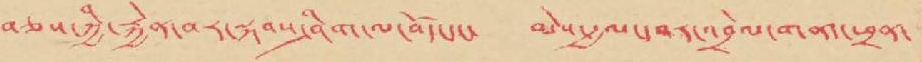བཅས་ཀྱི་རྐྱེན་བར་སྐབས་ཤིག་ལ་བོད་དང་ མེས་རྒྱལ་དབར་འབྲེལ་གནད་ཕྲན་
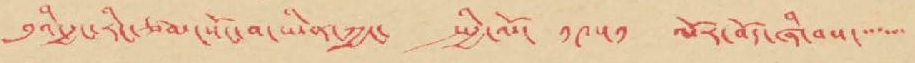བུའི་རྒྱང་རིང་ཙམ་སོང་བ་ཡིན་ཀྱང་ སྤྱི་ལོ་ ༡༩༥༡ ལོར་བོད་ཞི་བས་་་་་་་
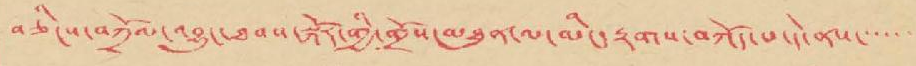བཅིངས་བཀྲོལ་འབྱུང་ཐབས་སྐོར་གྱི་གྲོས་མཐུན་ལ་མིང་རྟགས་བཀོད་པ་དེ་ནས་་་་་་
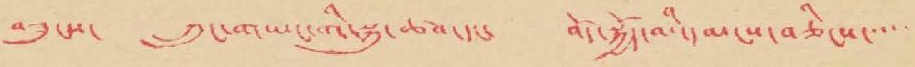བཟུངས་ ཀྲུང་གཡང་གི་སྐུ་ཚབ་དང་ བོད་སྐྱོད་མི་དམངས་བཅིངས་་་་་
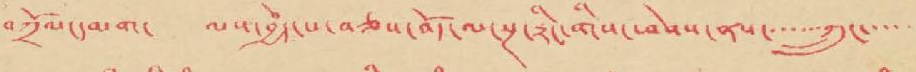བཀྲོལ་དམག་ ལས་བྱེད་པ་བཅས་བོད་ལ་སྔ་རྟིང་གིས་ཕེབས་ནས་་་་་་་ཀྲུང་་་་་
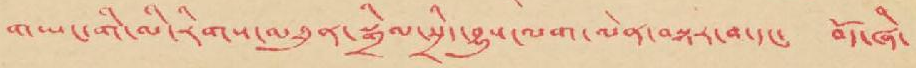གཡང་གི་མི་རིགས་མཐུན་སྒྲིལ་སྲི་བྱུས་ལག་ལེན་བསྟར་བ་དང་ བོད་ཞི་
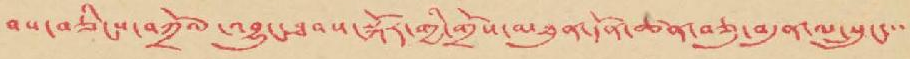བས་བཅིངས་བཀྲོལ་འབྱུང་ཐབས་སྐོར་གྱི་གྲོས་མཐུན་དོན་ཚན་བཅུ་བུན་ལ་སྲུང་་་
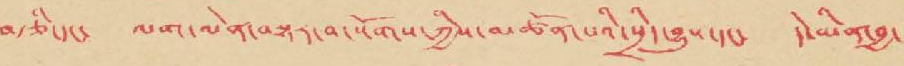བཙི་དང་ ལག་ལེན་བསྟར་བ་སོགས་ཀྱིས་མཚོན་པའི་སྲིད་བྱུས་དང་ དེ་ཡིན་བྱ་
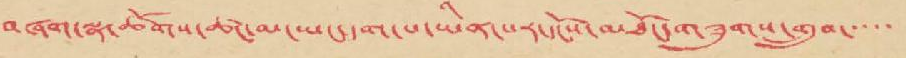བཞག་སྣ་ཚོགས་ཚང་མ་ཡང་དག་པ་ཡིན་པར་དངོས་མཐོང་གཟུགས་གྲུབ་་་་
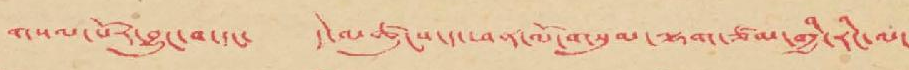གསལ་པོར་བྱུང་བ་དང་ དེ་མཚུངས་ད་ཕན་ལོ་གསུམ་ལྷག་ཙམ་གྱི་རིང་ལ་
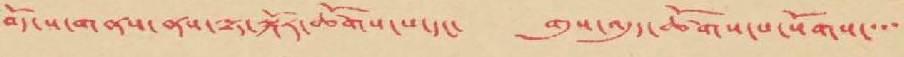བོད་ས་གནས་ནས་ལྟ་སྐོར་ཚོགས་པ་དང་ གུས་འདུད་ཚོགས་པ་སོགས་་་་
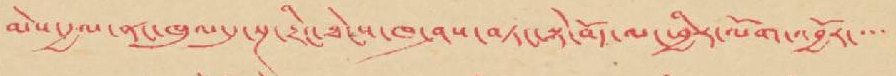མེས་རྒྱལ་ནང་ཁུལ་དུ་སྔ་རྟིང་ཐེངས་ཁ་ཤས་བཏང་སྟེ་བོད་ལ་ཕྱིར་ལོག་འབྱོར་་་་
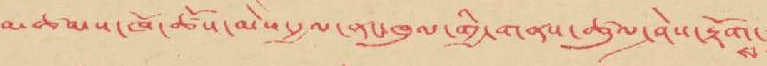མཚམས་ཁོ་ཚོས་མེས་རྒྱལ་ནང་ཁུལ་གྱི་གནས་ཚུལ་ཤེས་རྟོག
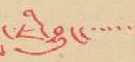་ཇི་བྱུང་་་་་་
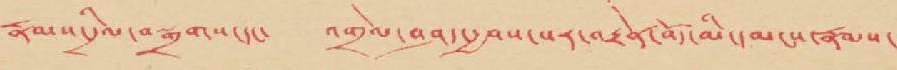རྣམས་རྒྱིལ་བརྒྱགས་དང་། འགྲེལ་བཤད་རྒྱབས་པར་བརྫེན་འོད་མི་དམངས་རྣམས་
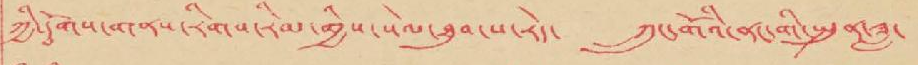ཀྱི་དོགས་གནས་རིགས་རིམ་གྱིས་སེལ་ཐུབ་པ་རེད། ཀྲུང་གོའི་ནང་གི་སྤྱན་ཟླ་
